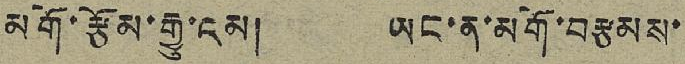མགོ་རྩོམ་རྒྱུ་ངམ། ཡང་ན་མགོ་བརྩམས་
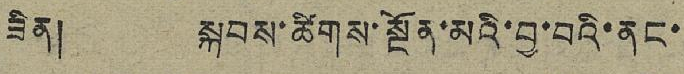ཟིན། སྐབས་ཚིགས་སྔོན་མའི་བྱ་བའི་ནང་
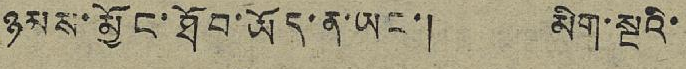ཉམས་མྱོང་ཐོབ་ཡོད་ན་ཡང་། མིག་སྔའི་
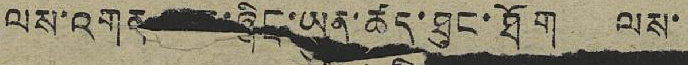ལས་འགན་མང་ཞིང་ཡུན་ཚད་ཐུང་ཐོག ལས་
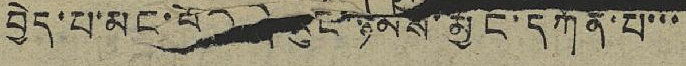བྱེད་པ་མང་པོར་ད་རུང་ཉམས་མྱོང་དཀོན་པ་་་
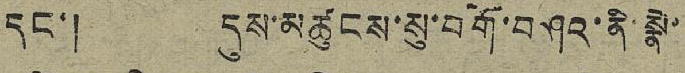དང་། དུས་མཚུངས་སུ་བགོ་བཤའ་ནི་སྣེ་
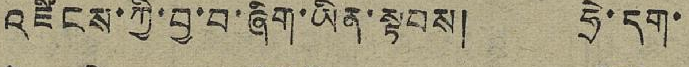འཛིངས་ཀྱི་བྱ་བ་ཞིག་ཡིན་སྟབས། ཧྲེ་དག་
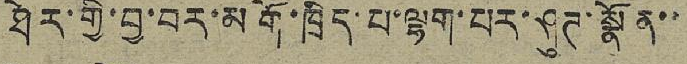ཐེར་གྱི་བྱ་བར་མགོ་ཁྲིད་པ་ལྷག་པར་ཤུཊ་སྣོན་་
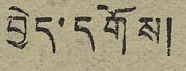བྱེད་དགོས།
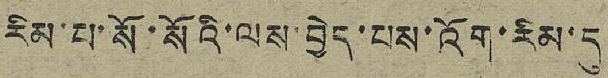རིམ་པ་སོ་སོའི་ལས་བྱེད་པས་འོག་རིམ་དུ
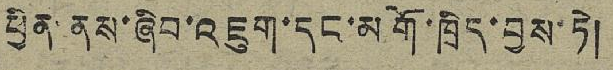ཕྱིན་ནས་ཞིབ་འཇུག་དང་མགོ་ཁྲིད་བྱས་ཏེ།
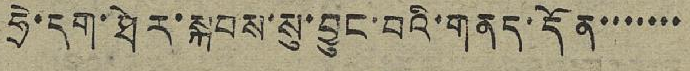ཧྲེ་དག་ཐེར་སྐབས་སུ་བྱུང་བའི་གནད་དོན་་་་་་་
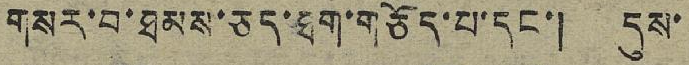གསར་བ་ཐམས་ཅད་ཐག་གཅོད་པ་དང་། དུས་
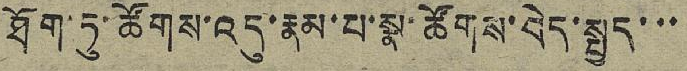ཐོག་ཏུ་ཚོགས་འདུ་རྣམ་པ་སྣ་ཚོགས་བེད་སྤྱད་་་
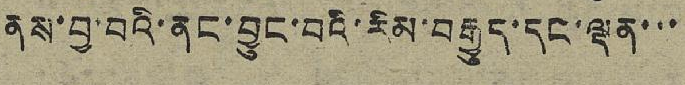ནས་བྱ་བའི་ནང་བྱུང་བའི་རིམ་བརྒྱུད་དང་ལྡན་་་
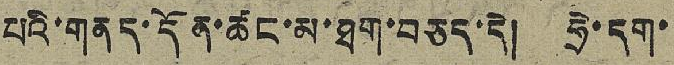པའི་གནད་དོན་ཚང་མ་ཐག་བཅད་དེ། ཧྲེ་དག་
